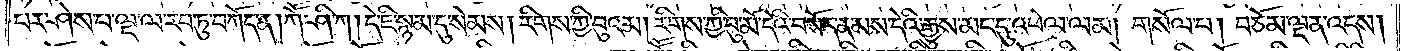པར་ཤེས་པ་ལྔ་ལ་རབ་ཏུ་བཀོད་ན། ཀཽ་ཤི་ཀ། དེ་ཇི་སྙམ་དུ་སེམས། རིགས་ཀྱི་བུའམ། རིགས་ཀྱི་བུ་མོ་དེའི་བསོད་ནམས་དེའི་རྒྱུས་མང་དུ་འཕེལ་ལམ། གསོལ་པ། བཅོམ་ལྡན་འདས།
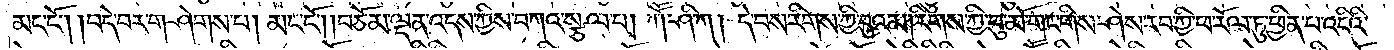མང་ངོ༌། །བདེ་བར་གཤེགས་པ། མང་ངོ༌། །བཅོམ་ལྡན་འདས་ཀྱིས་བཀའ་སྩལ་པ། ཀཽ་ཤི་ཀ། དེ་བས་རིགས་ཀྱི་བུའམ་རིགས་ཀྱི་བུ་མོ་གང་གིས་ཤེས་རབ་ཀྱི་ཕ་རོལ་ཏུ་ཕྱིན་པ་འདིའི་
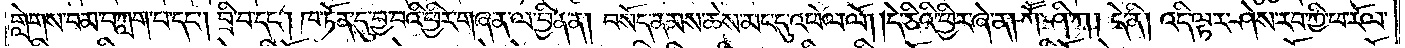གླེགས་བམ་བཀླག་པ་དང༌། བྲི་བ་དང༌། ཁ་ཏོན་དུ་བྱ་བའི་ཕྱིར་གཞན་ལ་བྱིན་ན། བསོད་ནམས་ཆེས་མང་དུ་འཕེལ་ལོ། །དེ་ཅིའི་ཕྱིར་ཞེ་ན། ཀཽ་ཤི་ཀ། དེ་ནི། འདི་ལྟར་ཤེས་རབ་ཀྱི་ཕ་རོལ་
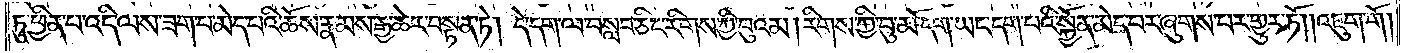ཏུ་ཕྱིན་པ་འདི་ལས་ཟག་པ་མེད་པའི་ཆོས་རྣམས་རྒྱ་ཆེར་བསྟན་ཏེ། དེ་དག་ལ་བསླབ་ཅིང་རིགས་ཀྱི་བུའམ། རིགས་ཀྱི་བུ་མོ་དག་ཡང་དག་པའི་སྐྱོན་མེད་པར་ཞུགས་པར་གྱུར་ཏོ། །འཇུག་གོ །
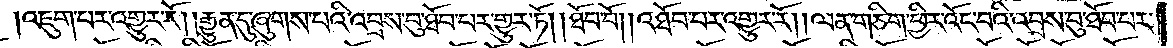འཇུག་པར་འགྱུར་རོ། །རྒྱུན་དུ་ཞུགས་པའི་འབྲས་བུ་ཐོབ་པར་གྱུར་ཏོ། །ཐོབ་བོ། །འཐོབ་པར་འགྱུར་རོ། །ལན་གཅིག་ཕྱིར་འོང་བའི་འབྲས་བུ་ཐོབ་པར་
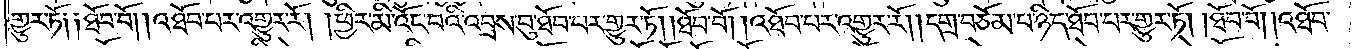གྱུར་ཏོ༑ ༑ཐོབ་བོ། །འཐོབ་པར་འགྱུར་རོ། །ཕྱིར་མི་འོང་བའི་འབྲས་བུ་ཐོབ་པར་གྱུར་ཏོ། །ཐོབ་བོ། །འཐོབ་པར་འགྱུར་རོ། །དགྲ་བཅོམ་པ་ཉིད་ཐོབ་པར་གྱུར་ཏོ། །ཐོབ་བོ། །འཐོབ་
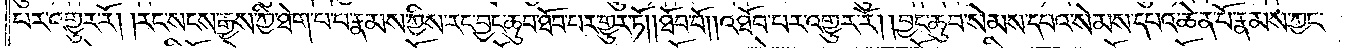པར་འགྱུར་རོ། །རང་སངས་རྒྱས་ཀྱི་ཐེག་པ་པ་རྣམས་ཀྱིས་རང་བྱང་ཆུབ་ཐོབ་པར་གྱུར་ཏོ། །ཐོབ་བོ། །འཐོབ་པར་འགྱུར་རོ། །བྱང་ཆུབ་སེམས་དཔའ་སེམས་དཔའ་ཆེན་པོ་རྣམས་ཀྱང་
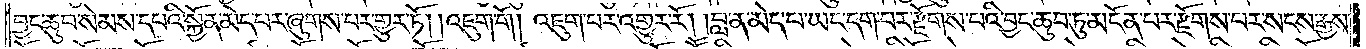བྱང་ཆུབ་སེམས་དཔའི་སྐྱོན་མེད་པར་ཞུགས་པར་གྱུར་ཏོ། །འཇུག་གོ། འཇུག་པར་འགྱུར་རོ། །བླ་ན་མེད་པ་ཡང་དག་པར་རྫོགས་པའི་བྱང་ཆུབ་ཏུ་མངོན་པར་རྫོགས་པར་སངས་རྒྱས་
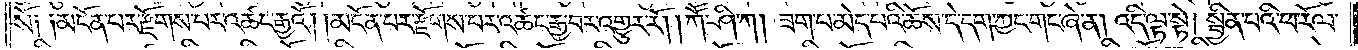སོ༑ ༑མངོན་པར་རྫོགས་པར་འཚང་རྒྱའོ། །མངོན་པར་རྫོགས་པར་འཚང་རྒྱ་བར་འགྱུར་རོ། །ཀཽ་ཤི་ཀ། ཟག་པ་མེད་པའི་ཆོས་དེ་དག་ཀྱང་གང་ཞེ་ན། འདི་ལྟ་སྟེ། སྦྱིན་པའི་ཕ་རོལ་
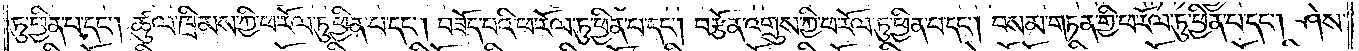ཏུ་ཕྱིན་པ་དང༌། ཚུལ་ཁྲིམས་ཀྱི་ཕ་རོལ་ཏུ་ཕྱིན་པ་དང༌། བཟོད་པའི་ཕ་རོལ་ཏུ་ཕྱིན་པ་དང༌། བརྩོན་འགྲུས་ཀྱི་ཕ་རོལ་ཏུ་ཕྱིན་པ་དང༌། བསམ་གཏན་གྱི་ཕ་རོལ་ཏུ་ཕྱིན་པ་དང༌། ཤེས་
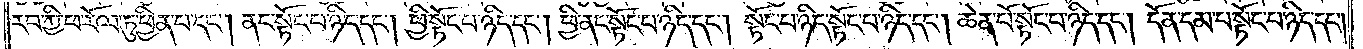རབ་ཀྱི་ཕ་རོལ་ཏུ་ཕྱིན་པ་དང༌། ནང་སྟོང་པ་ཉིད་དང༌། ཕྱི་སྟོང་པ་ཉིད་དང༌། ཕྱི་ནང་སྟོང་པ་ཉིད་དང༌། སྟོང་པ་ཉིད་སྟོང་པ་ཉིད་དང༌། ཆེན་པོ་སྟོང་པ་ཉིད་དང༌། དོན་དམ་པ་སྟོང་པ་ཉིད་དང༌།
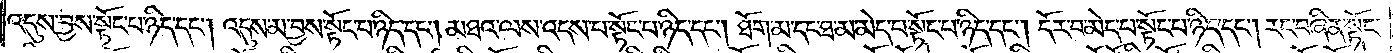འདུས་བྱས་སྟོང་པ་ཉིད་དང༌། འདུས་མ་བྱས་སྟོང་པ་ཉིད་དང༌། མཐའ་ལས་འདས་པ་སྟོང་པ་ཉིད་དང༌། ཐོག་མ་དང་ཐ་མ་མེད་པ་སྟོང་པ་ཉིད་དང༌། དོར་བ་མེད་པ་སྟོང་པ་ཉིད་དང༌། རང་བཞིན་སྟོང་
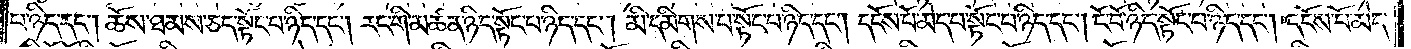པ་ཉིད་དང༌། ཆོས་ཐམས་ཅད་སྟོང་པ་ཉིད་དང༌། རང་གི་མཚན་ཉིད་སྟོང་པ་ཉིད་དང༌། མི་དམིགས་པ་སྟོང་པ་ཉིད་དང༌། དངོས་པོ་མེད་པ་སྟོང་པ་ཉིད་དང༌། ངོ་བོ་ཉིད་སྟོང་པ་ཉིད་དང༌། དངོས་པོ་མེད་
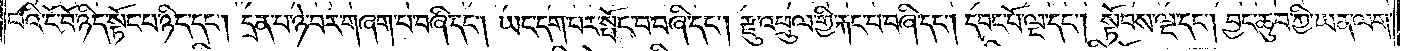པའི་ངོ་བོ་ཉིད་སྟོང་པ་ཉིད་དང༌། དྲན་པ་ཉེ་བར་གཞག་པ་བཞི་དང༌། ཡང་དག་པར་སྤོང་བ་བཞི་དང༌། རྫུ་འཕྲུལ་གྱི་རྐང་པ་བཞི་དང༌། དབང་པོ་ལྔ་དང༌། སྟོབས་ལྔ་དང༌། བྱང་ཆུབ་ཀྱི་ཡན་ལག་
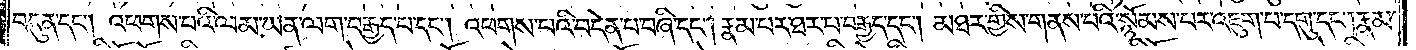བདུན་དང༌། འཕགས་པའི་ལམ་ཡན་ལག་བརྒྱད་པ་དང༌། འཕགས་པའི་བདེན་པ་བཞི་དང༌། རྣམ་པར་ཐར་པ་བརྒྱད་དང༌། མཐར་གྱིས་གནས་པའི་སྙོམས་པར་འཇུག་པ་དགུ་དང༌། རྣམ་
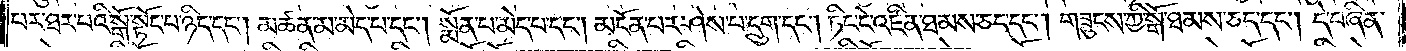པར་ཐར་པའི་སྒོ་སྟོང་པ་ཉིད་དང༌། མཚན་མ་མེད་པ་དང༌། སྨོན་པ་མེད་པ་དང༌། མངོན་པར་ཤེས་པ་དྲུག་དང༌། ཏིང་ངེ་འཛིན་ཐམས་ཅད་དང༌། གཟུངས་ཀྱི་སྒོ་ཐམས་ཅད་དང༌། དེ་བཞིན་
